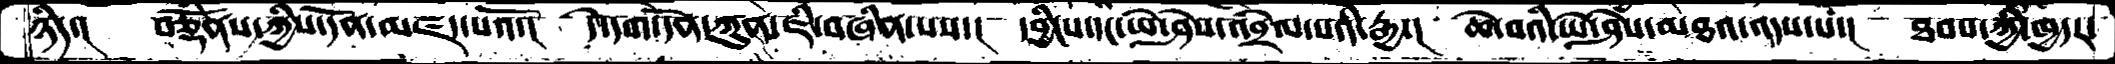ཉིད་།   བཅྡོཾནས་ཀྱིས་དོན་མཛད་པའོ་།  དེ་དག་དོན་ཀུན་ཇི་བཞིན་པས་།  དབྱིངས་དང་ཡེ་ཤེས་འབྲེལ་པའི་རྒྱ་།  ཆེ་བའི་ཡེ་ཤེས་མཐའ་འདས་པ་།  ཐབས་ཀྱི་ཁྱདར་
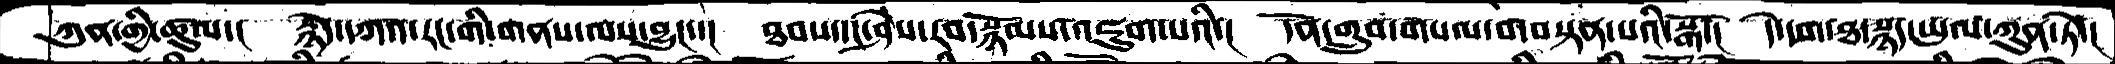ཀུན་གྱི་ཚུལ་།  རྙེད་དཀའ་རང་གི་གནས་ལས་བྱུང་་།  ཐབས་དང་ཤེས་རབ་སྙོམས་འཇུག་པའི་།  དོན་གྲུབ་གསལ་བ་བསྟན་པའི་སྒོ་།  དེ་དག་ཐ་སྙད་ཡུལ་ཀུན་ཏེ་།
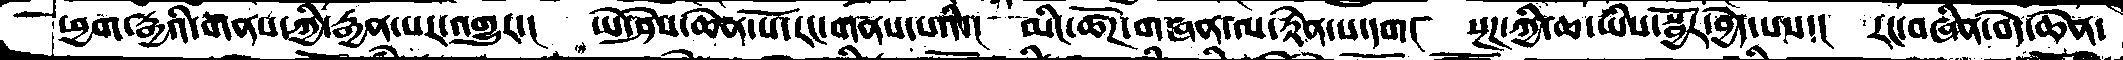ཕྱག་རྒྱའི་གནས་ཀྱི་རྒྱན་པར་འགྱུར་།   ཡེ་ཤེས་ཆེན་པོ་རང་གནས་པའི་།  མིང་ཚོཌ་གཞན་ལ་རྟེན་པ་དག།  སྔཌ་ཀྱི་ཆ་ཡིས་སྦྱོར་བྱེད་པས་།  རང་བཞིན་བདེ་ཆེན་
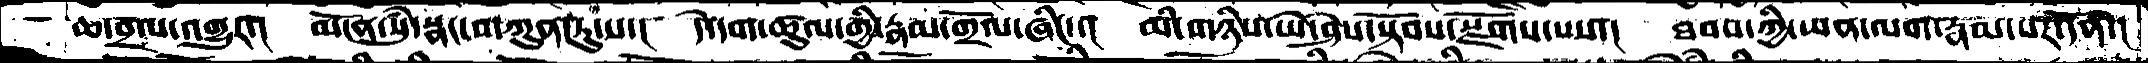ཆ་བྲལ་འགྱུར་།  མངོན་སུཾ་སྣང་བ་ཀུན་ཏུ་ས་།  དེ་དག་ཚུལ་གྱི་རྣམ་གྲོལ་ཞིང་་།  མི་གཉིས་ཡེ་ཤེས་སྟོབས་སྫོགས་པས་།  ཐབས་ཀྱི་ཡན་ལག་རྣམ་པར་དོན་།
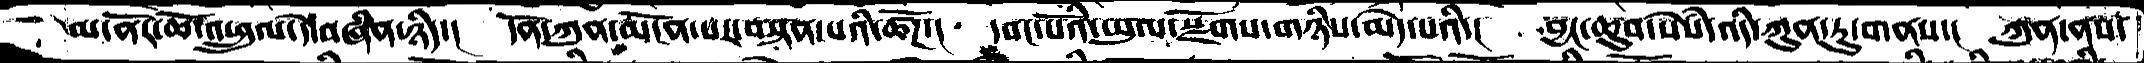མ་ནོར་ཆོ་འཕྲུལ་དེ་བཞིན་ཉིད་།  དོན་ཀུན་མངོན་པར་བསྟན་པའི་ཚོཌ་།  དབང་པོའི་ཡུལ་སྫོགས་གཉིས་མེད་པའི་།  བྱང་ཆུབ་སེཾས་འདི་ཀུན་ཏུ་གནས་།  ཀུན་ནས་
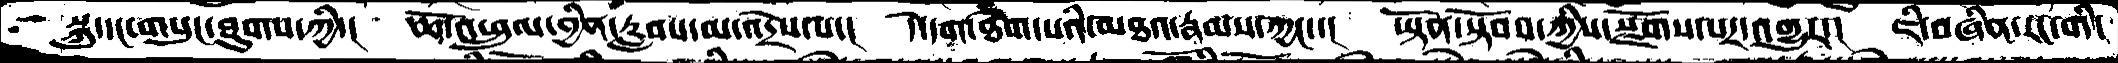སྐུ་དང་གསུང་ཐུགས་ཀྱི་།  ཆོ་འཕྲུལ་བྱིན་རླབས་མ་འདྲེས་པ་།  དེ་དག་ཐེག་པའི་མཐའ་རྣམས་ཀྱང་་།  ཡྟོན་སྟོབས་ཀྱིས་སྫོགས་པར་འགྱུར་།  ཇི་བཞིན་རང་གི་
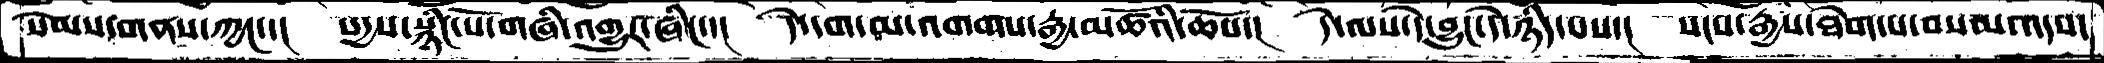སེམས་གནས་ཀྱང་་།  སདྱས་སྙིང་པོ་གཞི་འགྱུར་ཞིང་་།  དེ་དག་མ་འགགས་རྒྱ་མཚོའི་ཆོས་།  དེ་ལས་དེ་བྱུང་དེ་ཉིད་པས་།  སངས་རྒྱས་ཐེག་པ་བསམ་འདས་
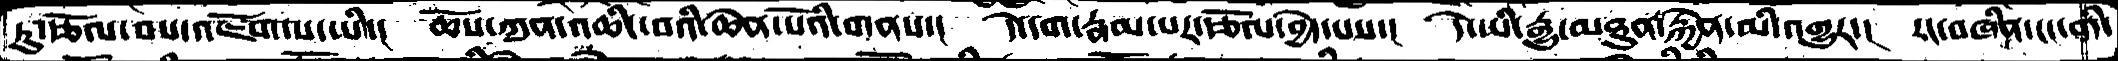ཏུ་རྩོལ་བས་འཇོག་པ་ཡི་།  ཆོས་ཀུན་འཆིང་བའི་ཆེན་པོའི་གནས་།  དེ་དག་རྣམ་པར་རྩོལ་བྱེད་པས་།  དེ་ཡི་རྒྱུ་མཐུན་རྐྱེན་མི་འགྱུར་།  རང་བཞིན་ངང་གི་
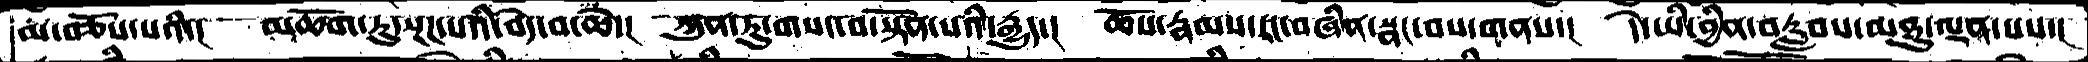མ་བཅོས་པའི་།  མཆོག་ཏུ་སྔཌ་པའི་བདེ་བ་ཆེ་།  ཀུན་ཏུ་གསང་བ་སྟོན་པའི་རྒྱུད་།  ཆོས་རྣམས་རང་བཞིན་སྣང་བས་གནས་།  དེ་ཡི་བྱིན་བརླབས་མཐུ་ལྡན་པས་།
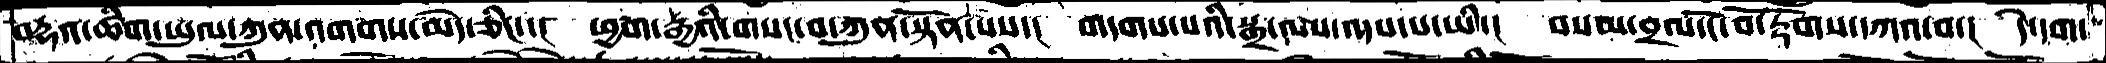བརྡའ་ཚིག་ཡུལ་ཀུན་འགགས་མེད་ཅིང་་།  ཕྱག་རྒྱའི་གསང་བ་ཀུན་སྟོན་པས་།  གདགས་པའི་སྒྲ་ལས་འདས་པ་ཡི་།  བསམ་བྲལ་ངོ་བོ་རྟོགས་དཀའ་བ་།  དེ་དག་
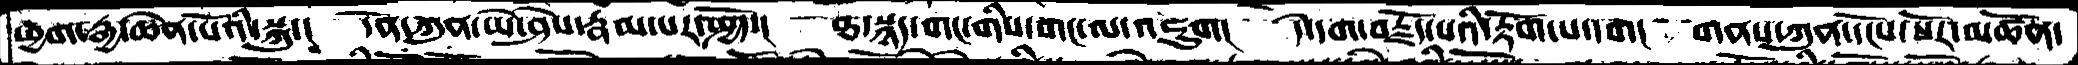ཕྱག་རྒྱ་ཆེན་པོའི་སྐུ་།  དོན་ཀུན་ཡེ་ཤེས་རྣམ་པར་སྤྱོད་།  ཐ་སྙད་གང་གིས་གང་ལ་འཇུག་།  དེ་དག་བརྗོད་པའི་རྟོག་པ་དག།  གནས་ཀུན་དངོས་པོར་མཚོན་
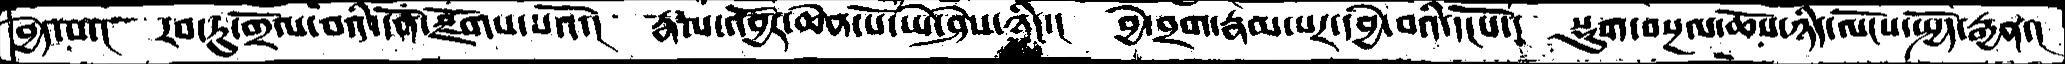བྱེད་པ་།  རབ་ཏུ་གྲོལ་བའི་དོན་སྫོགས་པའོ་།  རྣལ་འབྱོར་ཆེན་པོ་ཡེ་ཤེས་ཉིད་།  བྱེ་བྲག་རྣམ་པར་དབྱེ་བའི་དངོས་།  སྡུག་བསྔལ་ཆོས་ཉིད་ལོངས་སྤྱོད་རྒྱན་།
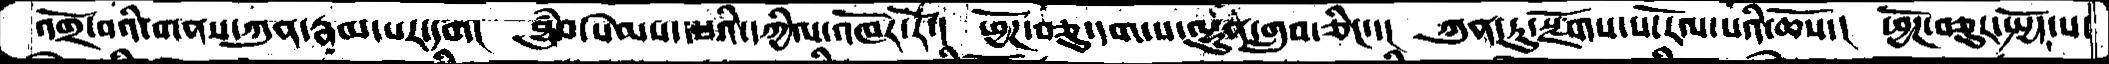འགྲོ་བའི་གནས་ཀུན་རྣམ་པར་དག།  བྱུཾབ་སེམས་པའི་དཀྱིལ་འཁོར་རོ་།  ཕྱོཌ་བཅུ་དག་པ་ལྷུན་གྲུབ་ཅིང་།  ཀུན་ཏུ་སྫོགས་པ་རོལ་པའི་ཆོས་།  ཕྱོཌ་བཅུར་སྤྱོད་པ་
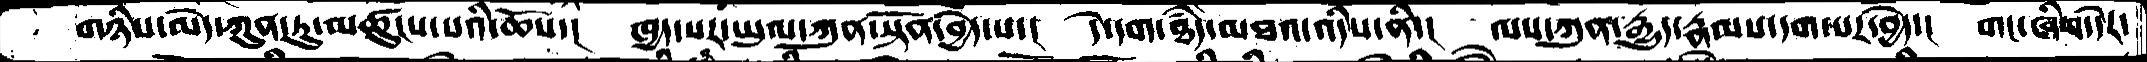གཉིས་མེད་ཀུན་ཏུ་མཚུངས་པའི་ཆོས་།  ཁྱད་པར་ཡུལ་ཀུན་སྟོན་བྱེད་པ་།  དེ་དག་ཐཾད་མཐའ་འདིས་ནི་།  ལས་ཀུན་རྒྱུད་རྣམས་དག་པར་བྱེད་།  གང་ཞིག་དེར་
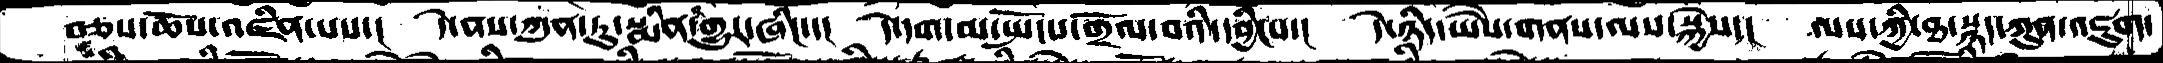བཅས་ཆོས་འཛིན་པས་།  དེ་ནས་ཀུན་ཏུ་སྨིན་གྱུར་ཞིང་་།  དེ་དག་མ་སྤོངས་གྲོལ་བའི་དབྱིངས་།  དེ་ཉིད་ཡཻས་གནས་ལས་སྐྱེས་།  ལས་ཀྱི་ཐ་སྙད་ཀུན་འཇུག
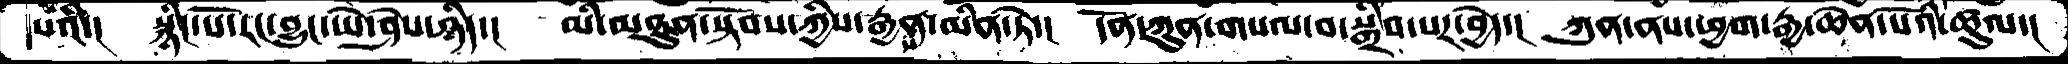པའི་།  སྙིང་པོ་རང་བྱུང་ཡེ་ཤེས་ཉིད་།  མི་མཐུན་སྟོབས་ཀྱིས་རྒྱན་མིན་ཏེ་།  དོན་ཀུན་གསལ་བ་སྒྲིབ་པར་བྱེད་།  ཀུན་ནས་ཕྱག་རྒྱ་ཆེན་པོའི་ཚུལ་།
